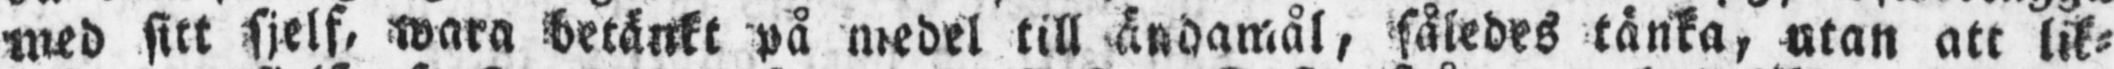med sitt sjelf, wara betänkt på medel till ändamål, således tänka, utan att lik-
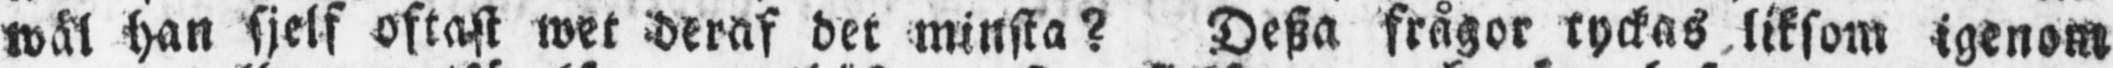wäl han sjelf oftast wet deraf det minsta? Desza frågor tyckas liksom igenom
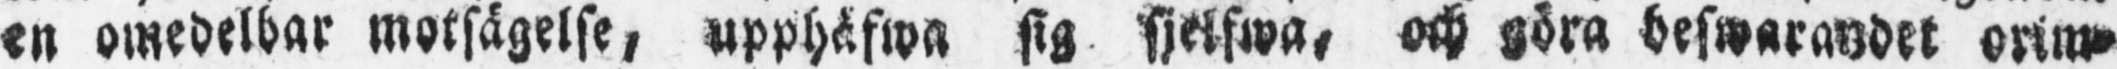en omedelbar motsägelse, upphäfwa sig sjelfwa, och göra beswarandet orim-
